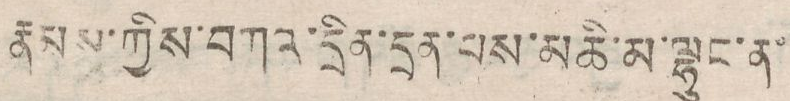རྣམས་ཀྱིས་བཀའ་དྲིན་དྲན་པས་མཆི་མ་ལྷུང་ན་
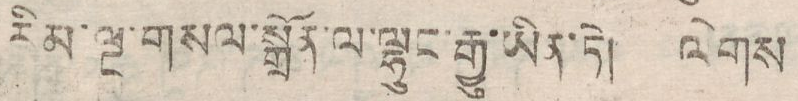རིམ་ལྔ་གསལ་སྒྲོན་ལ་ལྷུང་རྒྱུ་ཡིན་ཏེ། ལེགས
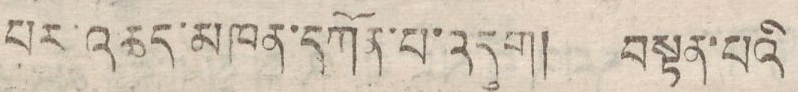པར་འཆད་མཁན་དཀོན་་པ་འདུག། བསྟན་པའི
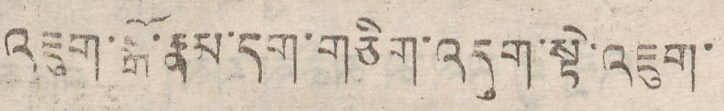འཇུག་སྒོ་རྣམ་དག་གཅིག་འདུག་སྟེ་འཇུག་
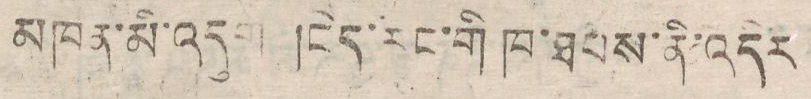མཁན་མི་འདུག །ངེད་རང་གི ཁ་ཐབས་ནི་འདིར
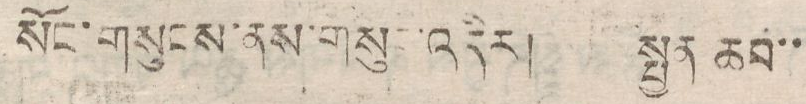སོང་གསུངས་ནས་གསུང་འདིར། སྤྱན ཆབ་་
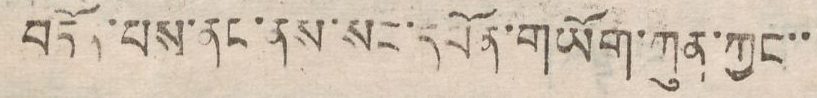བཏོན་པས་ནང་ནས་སང་དཔོན་གཡོག་ཀུན་ཀྱང་་
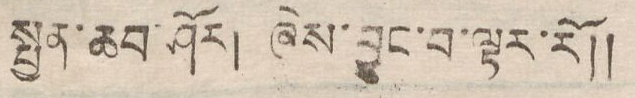སྤྱན་ཆབ་ཤོར། ཞེས་བྱུང་བ་ལྟར་རོ།།
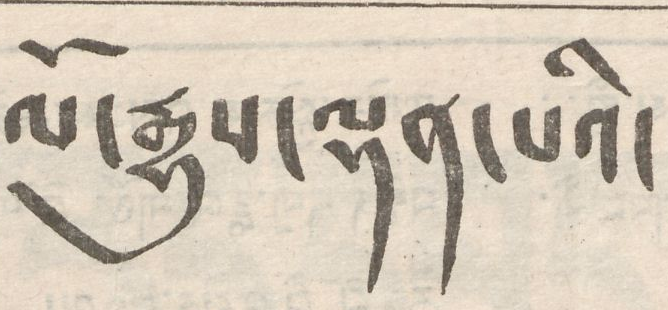ལོ་རྒྱུས་ལྡན་པའི་
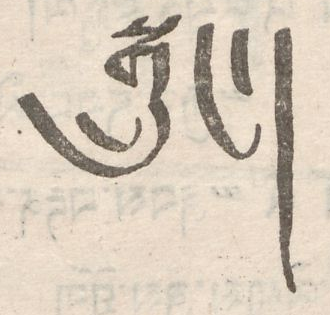སྒྲུང་།
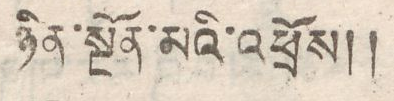ཉིན་སྔོན་མའི་འཕྲོས།།
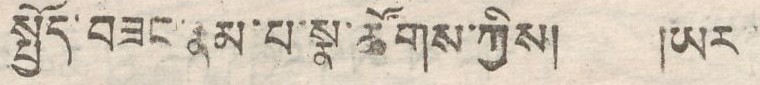སྤྱོད་བཟང་རྣམ་པ་སྣ་ཚོགས་ཀྱིས། །ཡར
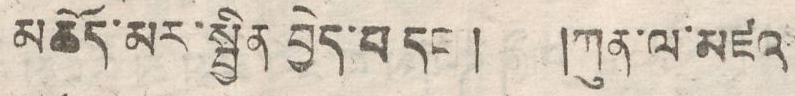མཆོད་མར་སྤྱིན བྱེད་པ་དང་། །ཀུན་ལ་མཛའ
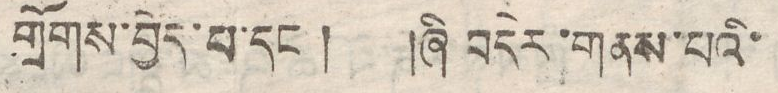གྲོགས་བྱེད་པ་དང་། །ཞི བདེར་གནས་པའི་
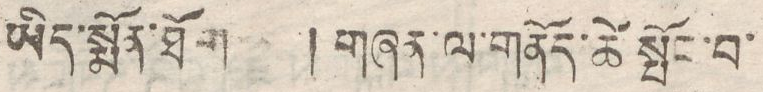ཡིད་སྨོན་ཐོག །གཞན་ལ་གནོད་ཚེ་སྤོང་བ་
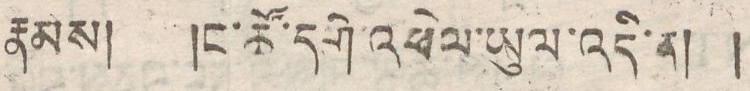རྣམས། །ང་ཚོ་དགེ་འཕེལ་ཡུལ་འདི་ན། །
